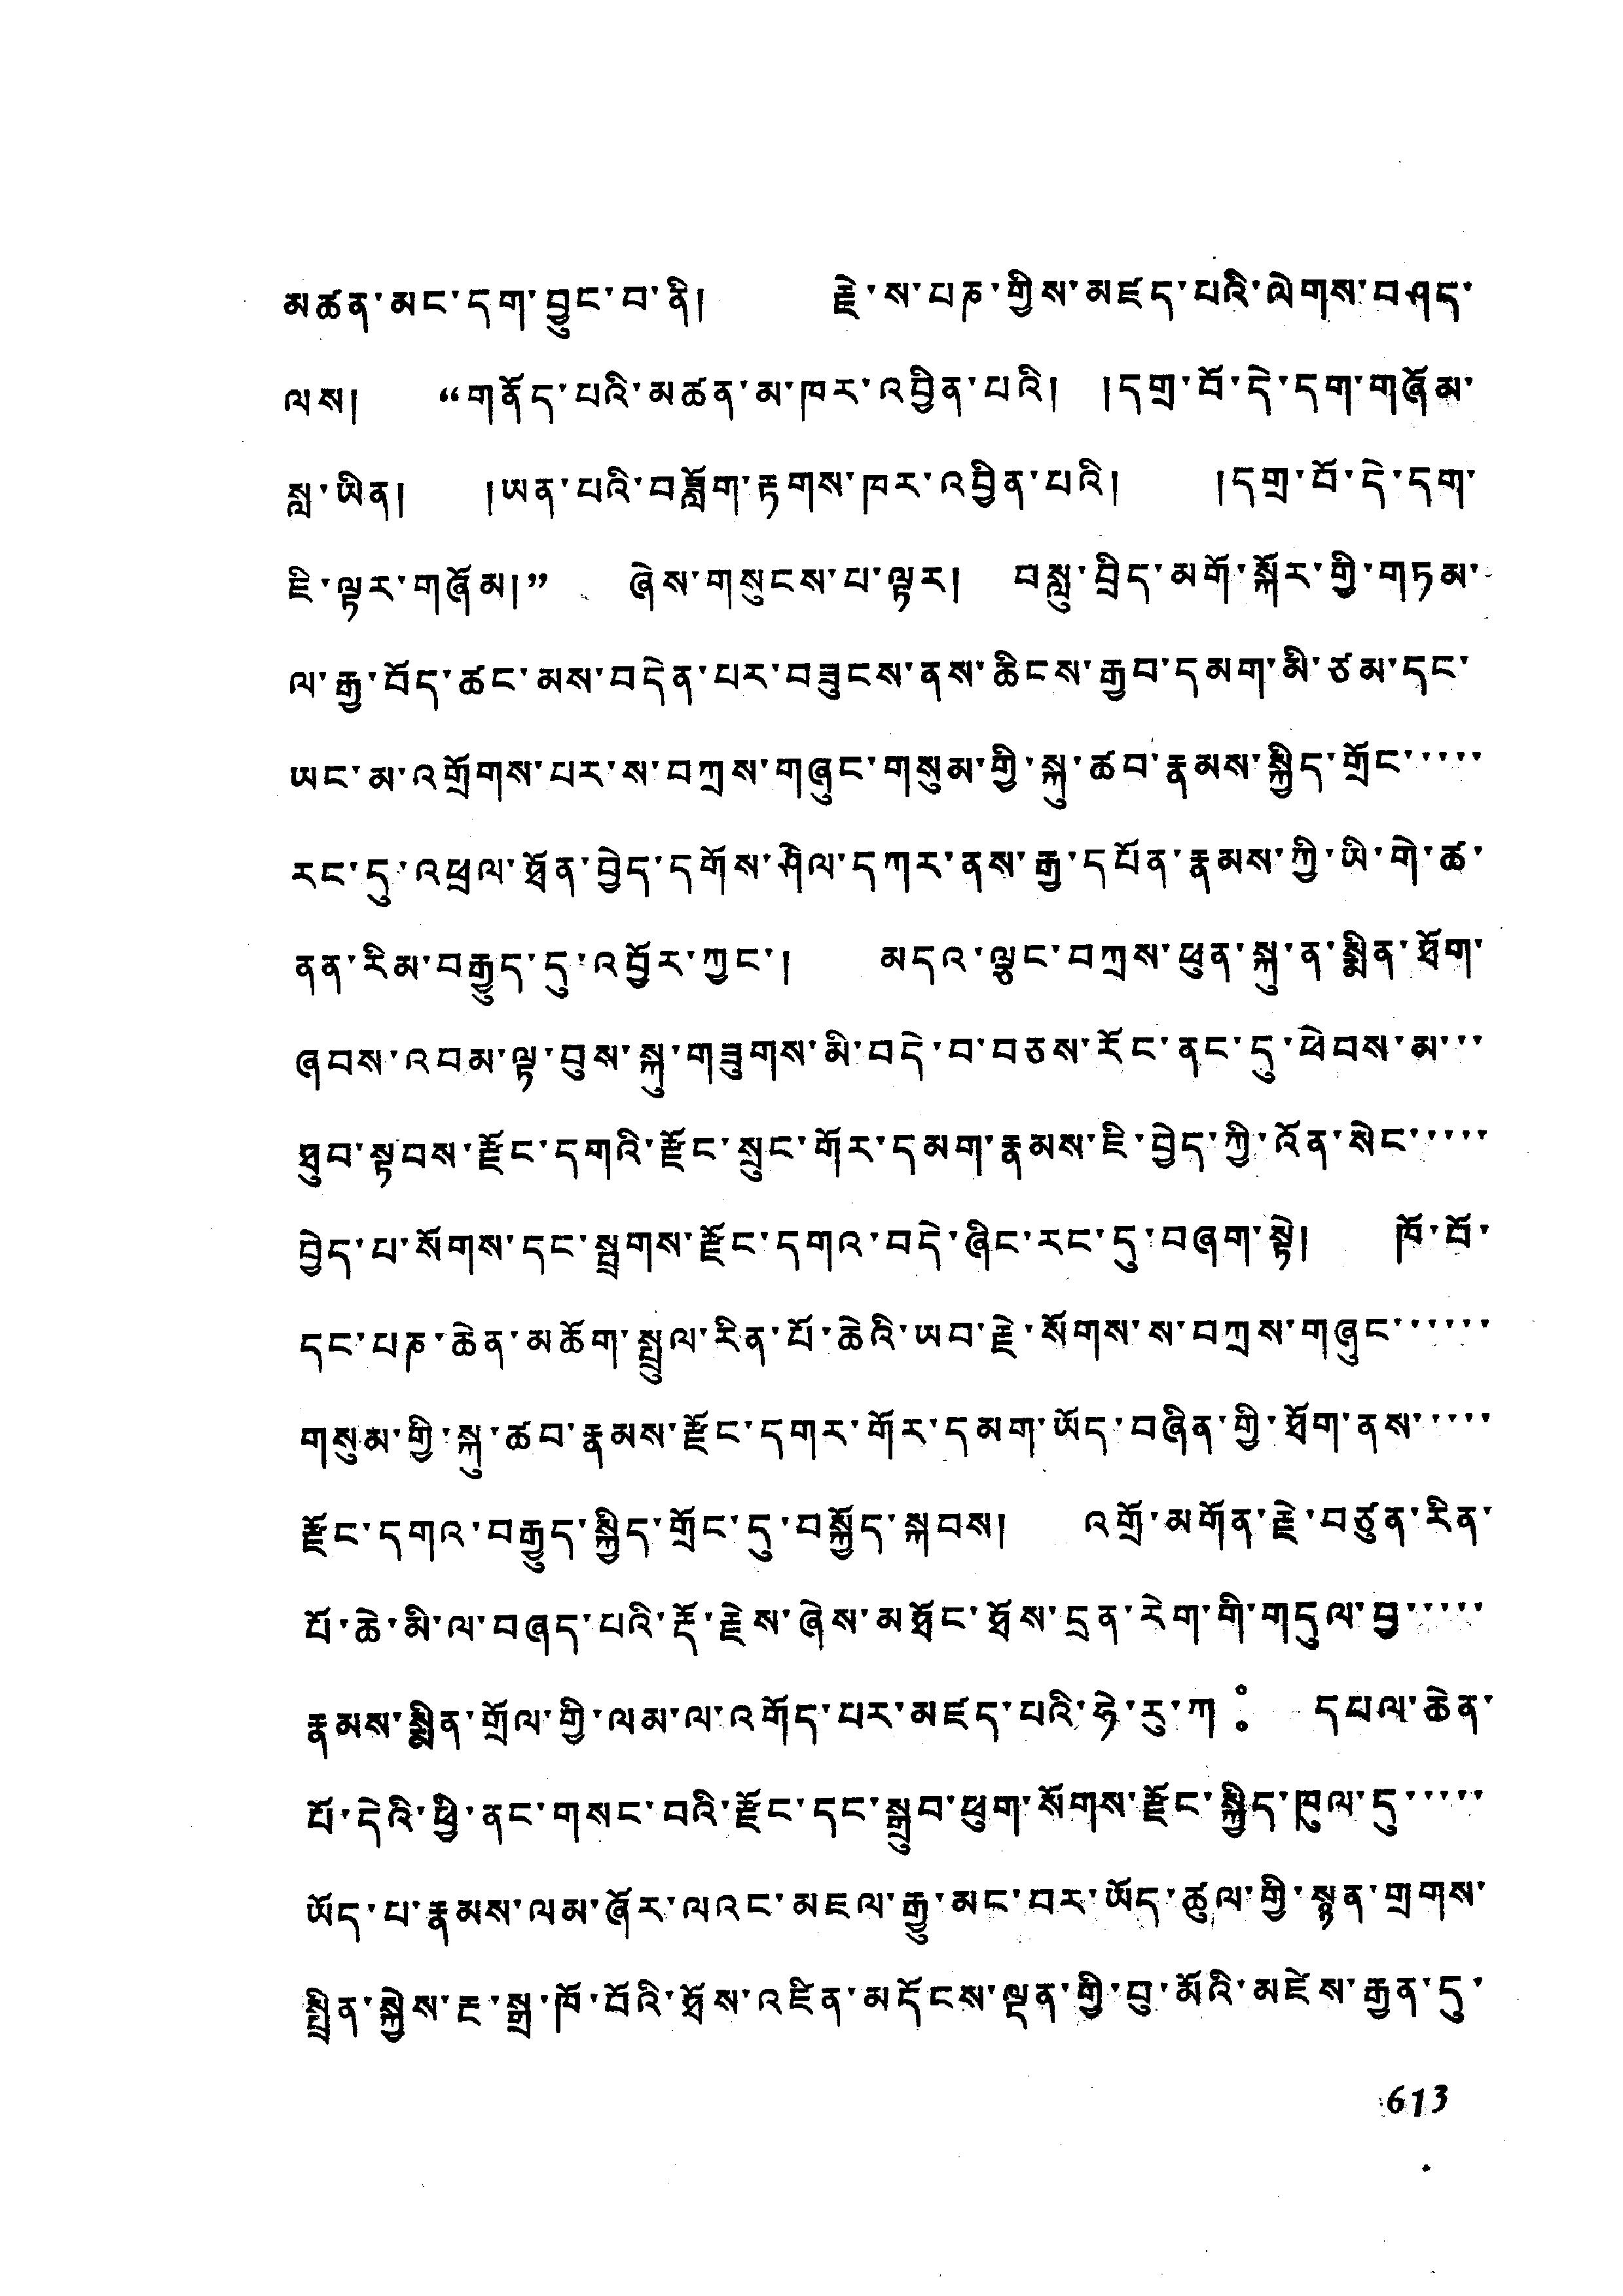མཚན་མང་དག་བྱུང་བ་ནི། རྗེ་ས་པཎ་གྱིས་མཛད་པའི་ལེགས་བཤད་
ལས། ”གནོད་པའི་མཚན་མ་ཁར་འབྱིན་པའི། །དགྲ་བོ་དེ་དག་གཞོམ་
སླ་ཡིན། །ཡན་པའི་བཟློག་རྟགས་ཁར་འབྱིན་པའི། །དགྲ་བོ་དེ་དག་
ཇི་ལྟར་གཞོམ།“ ཞེས་གསུངས་པ་ལྟར། བསླུ་བྲིད་མགོ་སྐོར་གྱི་གཏམ་
ལ་རྒྱ་བོད་ཚང་མས་བདེན་པར་བཟུངས་ནས་ཆིངས་རྒྱབ་དམག་མི་ཙམ་དང་
ཡང་མ་འགྲོགས་པར་ས་བཀྲས་གཞུང་གསུམ་གྱི་སྐུ་ཚབ་རྣམས་སྐྱིད་གྲོང་་་་་
རང་དུ་འཕྲལ་ཐོན་བྱེད་དགོས་ཤེལ་དཀར་ནས་རྒྱ་དཔོན་རྣམས་ཀྱི་ཡི་གེ་ཚ་
ནན་རིམ་བརྒྱུད་དུ་འབྱོར་ཀྱང་། མདའ་ལྕང་བཀྲས་ཕུན་སྐུ་ན་སྨིན་ཐོག་
ཞབས་འབམ་ལྟ་བུས་སྐུ་གཟུགས་མི་བདེ་བ་བཅས་རོང་ནང་དུ་ཕེབས་མ་་་
ཐུབ་སྟབས་རྫོང་དགའི་རྫོང་སྲུང་གོར་དམག་རྣམས་ཇི་བྱེད་ཀྱི་འོན་སེང་་་་་
བྱེད་པ་སོགས་དང་སྦྲགས་རྫོང་དགའ་བདེ་ཞིང་རང་དུ་བཞག་སྟེ། ཁོ་བོ་
དང་པཎ་ཆེན་མཆོག་སྤྲུལ་རིན་པོ་ཆེའི་ཡབ་རྗེ་སོགས་ས་བཀྲས་གཞུང་་་་་་
གསུམ་གྱི་སྐུ་ཚབ་རྣམས་རྫོང་དགར་གོར་དམག་ཡོད་བཞིན་གྱི་ཐོག་ནས་་་་་
རྫོང་དགའ་བརྒྱུད་སྐྱིད་གྲོང་དུ་བསྐྱོད་སྐབས། འགྲོ་མགོན་རྗེ་བཙུན་རིན་
པོ་ཆེ་མི་ལ་བཞད་པའི་རྡོ་རྗེས་ཞེས་མཐོང་ཐོས་དྲན་རེག་གི་གདུལ་བྱ་་་་་
རྣམས་སྨིན་གྲོལ་གྱི་ལམ་ལ་འགོད་པར་མཛད་པའི་ཧེ་རུ་ཀཿ དཔལ་ཆེན་
པོ་དེའི་ཕྱི་ནང་གསང་བའི་རྫོང་དང་སྒྲུབ་ཕུག་སོགས་རྫོང་སྐྱིད་ཁུལ་དུ་་་་་
ཡོད་པ་རྣམས་ལམ་ཞོར་ལའང་མཇལ་རྒྱུ་མང་བར་ཡོད་ཚུལ་གྱི་སྙན་གྲགས་
སྤྲིན་སྐྱེས་རྔ་སྒྲ་ཁོ་བོའི་ཐོས་འཛིན་མདོངས་ལྡན་གྱི་བུ་མོའི་མཛེས་རྒྱན་དུ་
613
